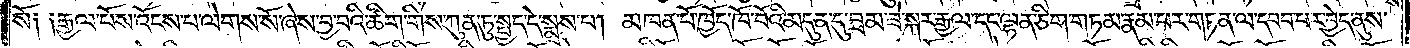སོ ༑ ༑རྒྱལ་པོས་འོངས་པ་ལེགས་སོ་ཞེས་བྱ་བའི་ཚིག་གིས་ཀུན་ཏུ་སྤྱད་དེ་སྨྲས་པ། མཁན་པོ་ཁྱོད་ཁོ་བོའི་མདུན་དུ་བྲམ་ཟེ་སྐར་རྒྱལ་དང་ལྷན་ཅིག་གཏམ་རྣམ་པར་གཏན་ལ་དབབ་པར་བྱེད་ནུས་
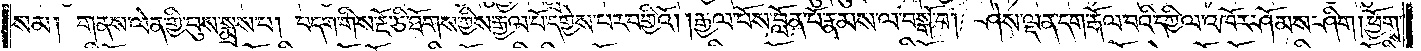སམ། གནས་ལེན་གྱི་བུས་སྨྲས་པ། བདག་གིས་རྡོ་ཅི་ཐོགས་ཀྱིས་རྒྱལ་པོ་དགྱེས་པར་བགྱིའོ། །རྒྱལ་པོས་བློན་པོ་རྣམས་ལ་བསྒོ་བ། ཤེས་ལྡན་དག་རྒོལ་བའི་དཀྱིལ་འཁོར་ཤོམས་ཤིག །ཕྱོགས་
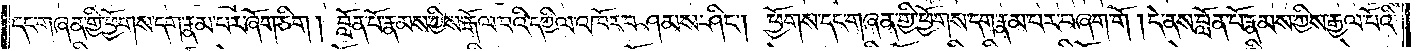དང་གཞན་གྱི་ཕྱོགས་དག་རྣམ་པར་ཞོག་ཅིག ། བློན་པོ་རྣམས་ཀྱིས་རྒོལ་བའི་དཀྱིལ་འཁོར་བཤམས་ཤིང༌། ཕྱོགས་དང་གཞན་གྱི་ཕྱོགས་དག་རྣམ་པར་བཞག་གོ །དེ་ནས་བློན་པོ་རྣམས་ཀྱིས་རྒྱལ་པོའི་
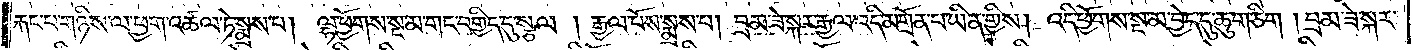རྐང་པ་གཉིས་ལ་ཕྱག་འཚལ་ཏེ་སྨྲས་པ། ལྷ་ཕྱོགས་སྔ་མ་གང་བགྱིད་དུ་སྩལ ། རྒྱལ་པོས་སྨྲས་པ། བྲམ་ཟེ་སྐར་རྒྱལ་འདི་མགྲོན་པ་ཡིན་གྱིས། འདི་ཕྱོགས་སྔ་མ་བྱེད་དུ་ཆུ་གཅིག །བྲམ་ཟེ་སྐར་
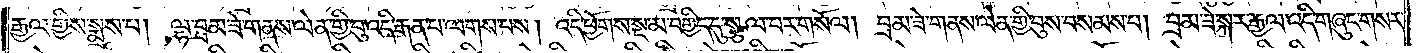རྒྱལ་གྱིས་སྨྲས་པ། ལྷ་བྲམ་ཟེ་གནས་ལེན་གྱི་བུ་འདི་རྒན་པ་ལགས་པས། འདི་ཕྱོགས་སྔ་མ་བགྱིད་དུ་སྩལ་བར་གསོལ། བྲམ་ཟེ་གནས་ལེན་གྱི་བུས་བསམས་པ། བྲམ་ཟེ་སྐར་རྒྱལ་འདི་གཞུང་གསར་
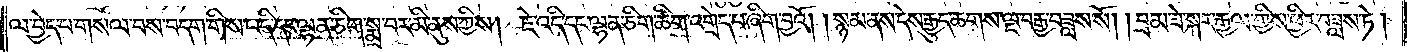ལ་བྱེད་པ་གསལ་བས་བདག་གིས་འདི་དང་ལྷན་ཅིག་སྨྲ་བར་མི་ནུས་ཀྱིས། ཇེ་འདི་དང་ལྷན་ཅིག་ཚིག་འགྲེད་པ་ཞིག་བྱའོ། །སྙམ་ནས་དེས་རྒྱུད་ཆགས་ལྔ་བརྒྱ་བཟླས་སོ། །བྲམ་ཟེ་སྐར་རྒྱལ་གྱིས་ཕྱིར་བཟླས་ཏེ།
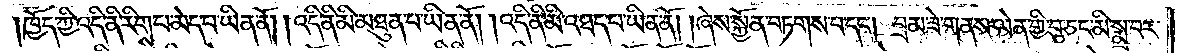ཁྱོད་ཀྱི་འདི་ནི་རིགས་པ་མེད་པ་ཡིན་ནོ། །འདི་ནི་མི་མཐུན་པ་ཡིན་ནོ། །འདི་ནི་མི་འཐད་པ་ཡིན་ནོ། །ཞེས་སྐྱོན་བཏགས་པ་དང༌། བྲམ་ཟེ་གནས་ལེན་གྱི་བུ་ཅང་མི་སྨྲ་བར་
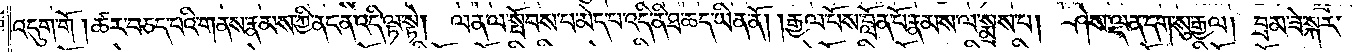འདུག་གོ །ཚར་བཅད་པའི་གནས་རྣམས་ཀྱི་ནང་ན་འདི་ལྟ་སྟེ། ལན་ལ་སྤོབས་པ་མེད་པ་འདི་ནི་ཐ་ཆད་ཡིན་ནོ། །རྒྱལ་པོས་བློན་པོ་རྣམས་ལ་སྨྲས་པ། ཤེས་ལྡན་དག་སུ་རྒྱལ། བྲམ་ཟེ་སྐར་
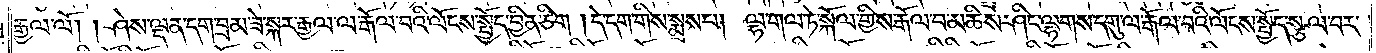རྒྱལ་ལོ། །ཤེས་ལྡན་དག་བྲམ་ཟེ་སྐར་རྒྱལ་ལ་རྒོལ་བའི་ལོངས་སྤྱོད་ཕྱིན་ཅིག །དེ་དག་གིས་སྨྲས་པ། ལྷ་གལ་ཏེ་སྐོལ་གྱིས་རྒོལ་བ་མཆིས་ཤིང་ལྷགས་དགུ་ལ་རྒོལ་བའི་ལོངས་སྤྱོད་སྩལ་བར་
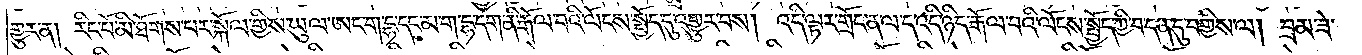གྱུར་ན། རིང་པོ་མི་ཐོགས་པར་སྐོལ་གྱིས་ཡུལ་ཨང་ག་དྷ་དང་མ་ག་དྷ་དག་ནི་རྒོལ་བའི་ལོངས་སྤྱོད་དུ་འགྱུར་བས། འདི་ལྟར་གྲོང་ན་ལ་ད་འདི་ཉིད་རྒོལ་བའི་ལོངས་སྤྱོད་ཀྱི་བ་དན་དུ་བགྱིས་ལ། བྲམ་ཟེ་
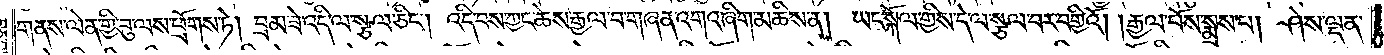གནས་ལེན་གྱི་བུ་ལས་ཕྲོགས་ཏེ། བྲམ་ཟེ་འདི་ལ་སྩལ་ཅིང༌། འདི་བས་ཀྱང་ཆེས་རྒྱལ་བ་གཞན་འགའ་ཞིག་མཆིས་ན། ཡང་སྐོལ་གྱིས་དེ་ལ་སྩལ་བར་བགྱིའོ། །རྒྱལ་པོས་སྨྲས་པ། ཤེས་ལྡན་
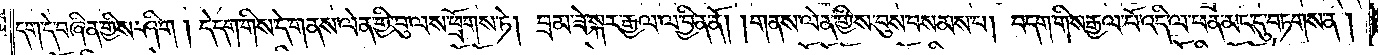དག་དེ་བཞིན་གྱིས་ཤིག །དེ་དག་གིས་དེ་གནས་ལེན་གྱི་བུ་ལས་ཕྲོགས་ཏེ། བྲམ་ཟེ་སྐར་རྒྱལ་ལ་བྱིན་ནོ། །གནས་ལེན་གྱིས་བུས་བསམས་པ། བདག་གིས་རྒྱལ་པོ་འདི་ལ་ཕན་མང་དུ་བཏགས་ན།
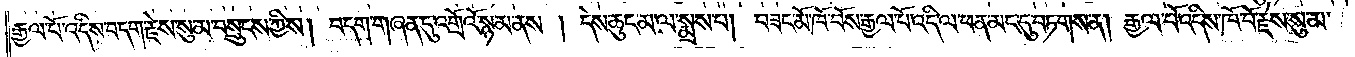རྒྱལ་པོ་འདིས་བདག་རྗེས་སུམ་བསྲུངས་ཀྱིས། བདག་གཞན་དུ་འགྲོའོ་སྙམ་ནས་།དེས་ཆུང་མ་ལ་སྨྲས་པ། བཟང་མོ་ཁོ་བོས་རྒྱལ་པོ་འདི་ལ་ཕན་མང་དུ་བཏགས་ན། རྒྱལ་པོ་འདིས་ཁོ་བོ་རྗེས་སུ་མ་
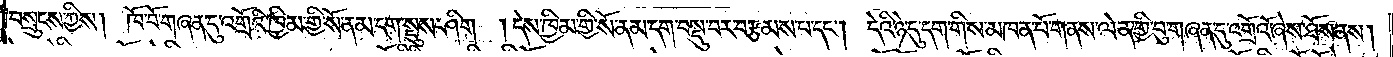བསྲུངས་ཀྱིས། ཁོ་བོ་གཞན་དུ་འགྲོའི་ཁྱིམ་གྱི་སོ་ནམ་དག་སྡུས་ཤིག །དེས་ཁྱིམ་གྱི་སོ་ནམ་དག་བསྡུ་བར་བརྩམས་པ་དང༌། དེའི་ཉེ་དུ་དག་གིས་མཁན་པོ་གནས་ལེན་གྱི་བུ་གཞན་དུ་འགྲོའོ་ཞེས་ཐོས་ནས།
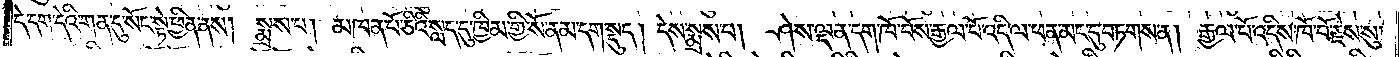དེ་དག་དེའི་གན་དུ་སོང་སྟེ་ཕྱིན་ནས། སྨྲས་པ། མཁན་པོ་ཅིའི་སླད་དུ་ཁྱིམ་གྱི་སོ་ནམ་དག་སྡུད། དེས་སྨྲས་པ། ཤེས་ལྡན་དག་ཁོ་བོས་རྒྱལ་པོ་འདི་ལ་ཕན་མང་དུ་བཏགས་ན། རྒྱལ་པོ་འདིས་ཁོ་བོ་རྗེས་སུ་
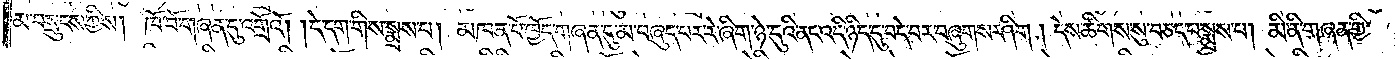མ་བསྲུངས་ཀྱིས། ཁོ་བོ་གཞན་དུ་འགྲོའོ། །དེ་དག་གིས་སྨྲས་པ། མཁན་པོ་ཁྱོད་གཞན་དུ་མ་བཞུད་པར་རེ་ཞིག་ཉེ་དུའི་ནང་འདི་ཉིད་དུ་བདེ་བར་བཞུགས་ཤིག །དེས་ཚིགས་སུ་བཅད་པ་སྨྲས་པ། མི་ནི་གཞན་གྱི་
